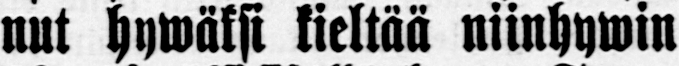nut hywäksi kieltää niinhywin
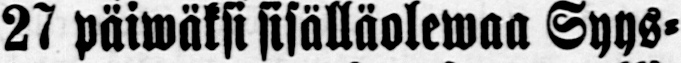27 päwäksi sisälläolewaa Syys-
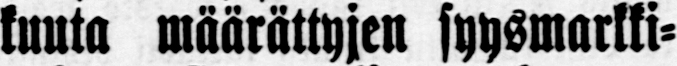kuuta määrättyjen syysmarkki-
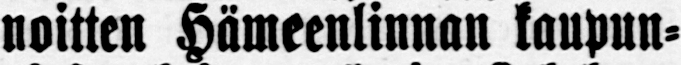noitten Hämeenlinnan kaupun-
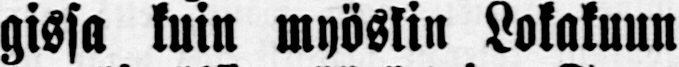gissa luin myöskin Lokakuun
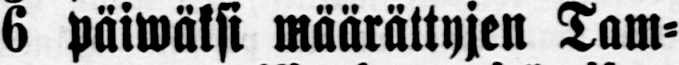6 päiwäksi määrättyjen Tam-
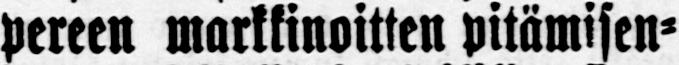pereen markkinoitten pitämisen-
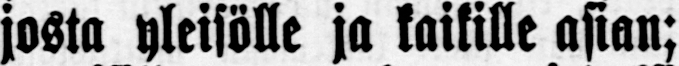josta yleisölle ja kaikille asian;
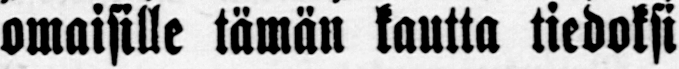omaisille tämän kautta tiedoksi
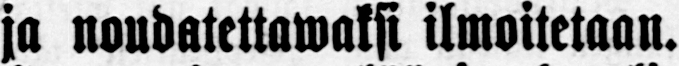ja noudatettawaksi ilmoitetaan.
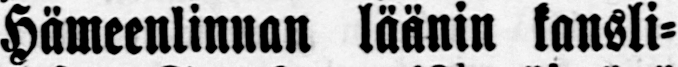Hämeenlinnan läänin kansli-
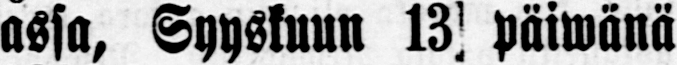assa, Syyskuun 13 päiwänä
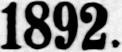1892.
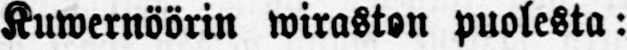Kuwernöörin wiraston puolesta:
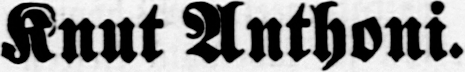Knut Anthoni.
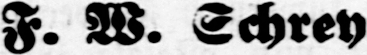F. W. Schrey.
